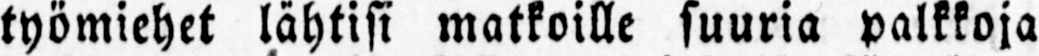työmiehet lähtisi matkoille suuria palkkoja
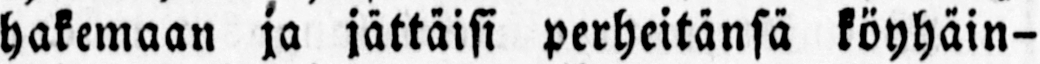hakemaan ja jättäisi perheitänsä köyhäin-
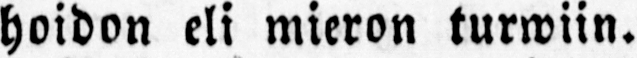hoidon eli mieron turwiin.
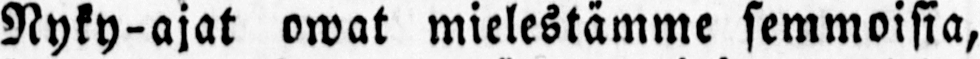Nyky-ajat owat mielestämme semmoisia,
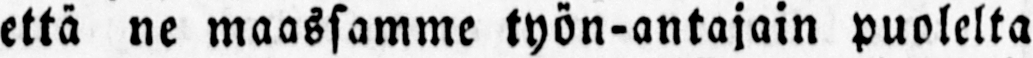että ne maassamme työn-antajain puolelta
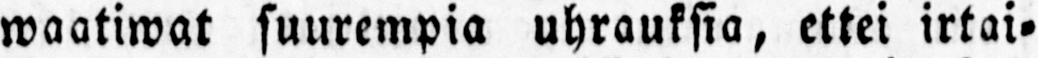waatiwat suurempia uhrauksia, ettei irtai-
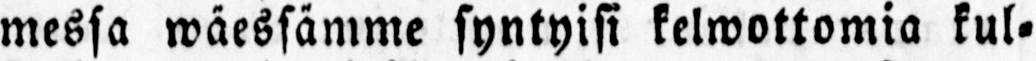messa wäessämme syntyisi kelwottomia kul-
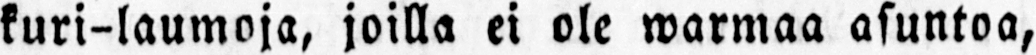kuri-laumoja, joilla ei ole warmaa asuntoa,
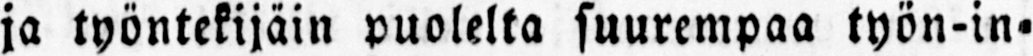ja työntekijäin puolelta suurempaa työn-in-
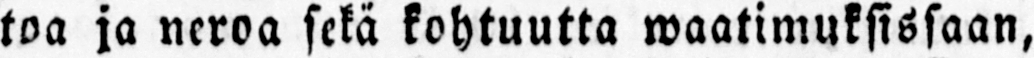toa ja neroa sekä kohtuutta waatimuksissaan,
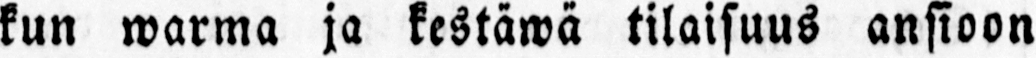kun warma ja kestäwä tilaisuus ansioon
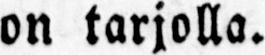on tarjolla.
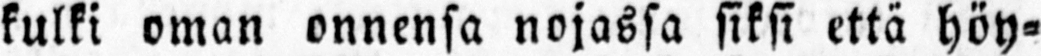kulki oman onnensa nojassa siksi että höy-
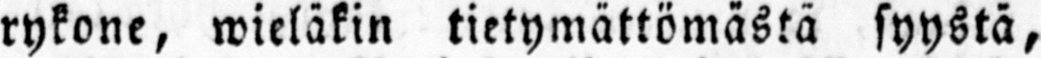rykone, wieläkin tietymättömästä syystä,
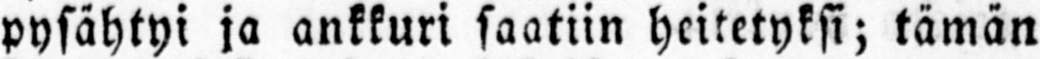pysähtyi ja ankkuri saatiin heitetyksi; tämän
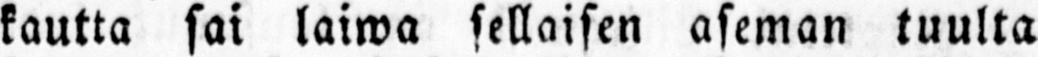kautta sai laiwa sellaisen aseman tuulta
